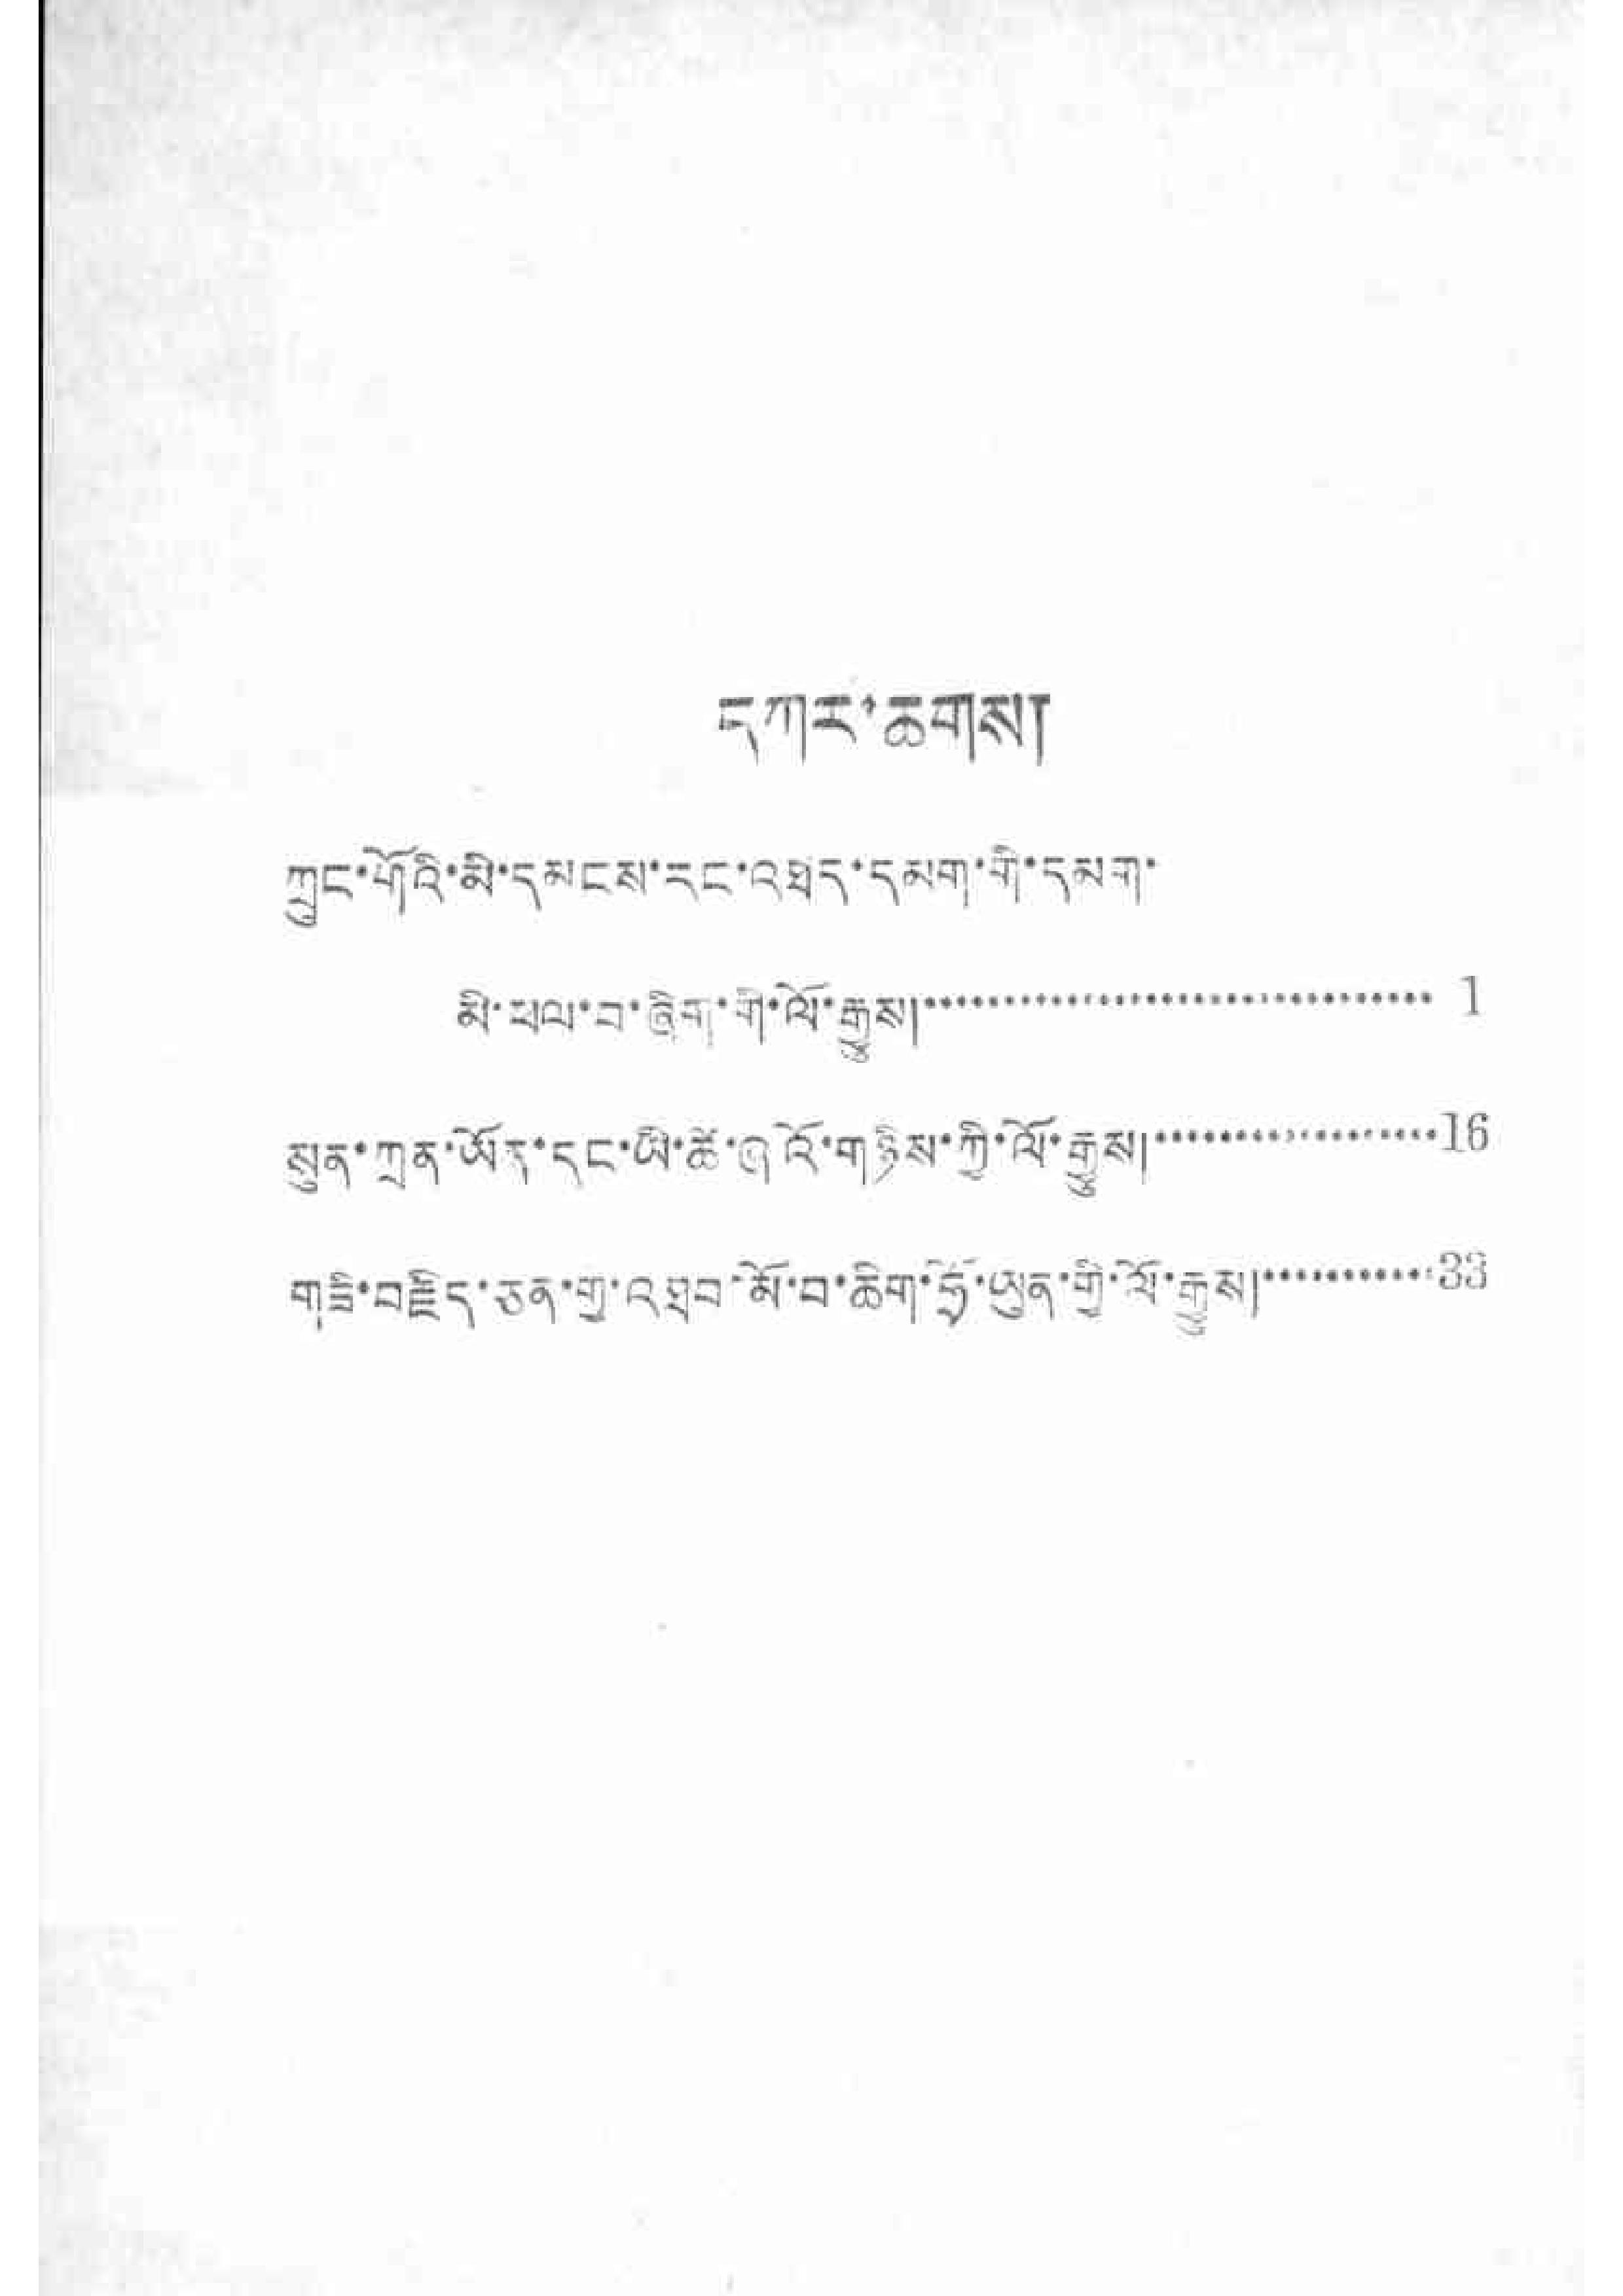དཀར་ཆགས།
ཀྲུང་གོའི་མི་དམངས་རང་འཐད་དམག་གི་དམག་
མི་ཕལ་བ་ཞིག་གི་ལོ་རྒྱུས།་་་་་་་་་་་་་་་་་་་་་་་་་་་་་་་་ 1
སུན་ཀྲན་ཡོན་དང་ཡི་ཚེ་ཞའོ་གཉིས་ཀྱི་ལོ་རྒྱས།་་་་་་་་་་་་་་་་་་16
གཇི་བརྗིད་ཅན་གྱི་འཐུབ་མོ་བ་ཆིག་ཧྲོ་ཡུན་གྱི་ལོ་རྒྱས་།་་་་་་་་་་་33
